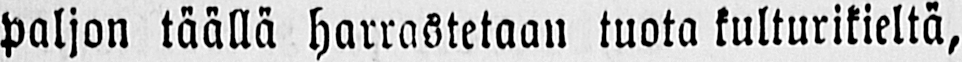paljon täällä harrastetaan tuota kulturikieltä,
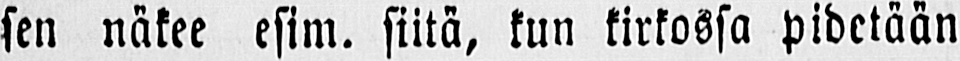sen näkee esim. siitä, kun kirkossa pidetään
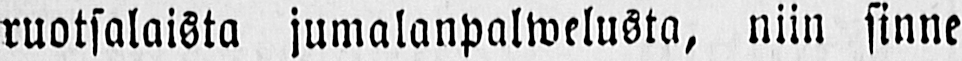ruotsalaista jumalanpalwelusta, niin sinne
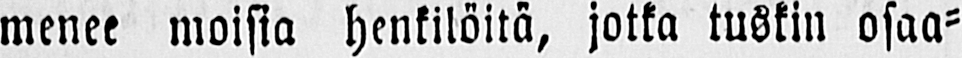menee moisia henkilöitä, jotka tuskin osaa-
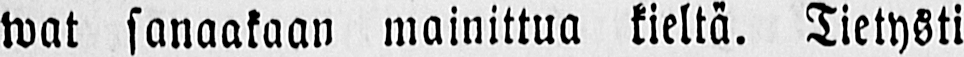wat sanaakaan mainittua kieltä. Tietysti
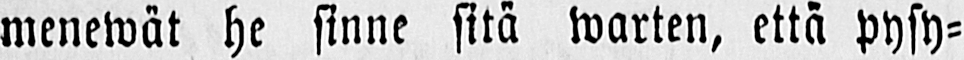menewät he sinne sitä warten, että pysy-
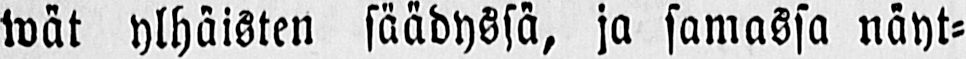wät ylhäisten säädyssä, ja samassa näyt-
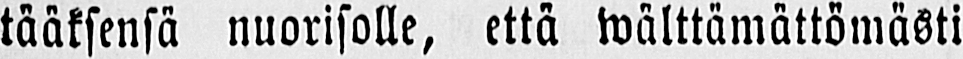tääksensä nuorisolle, että wälttämättömästi
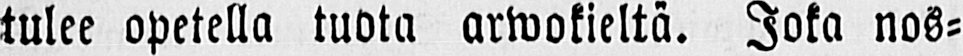tulee opetella tuota arwokieltä. Joka nos-
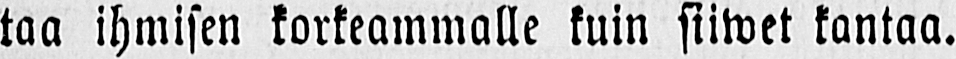taa ihmisen korkeammalle kuin siiwet kantaa.
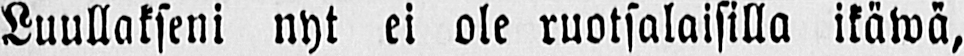Luullakseni nyt ei ole ruotsalaisilla ikäwä,
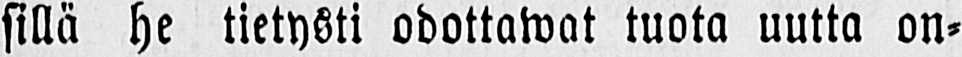sillä he tietysti odottawat tuota uutta on-
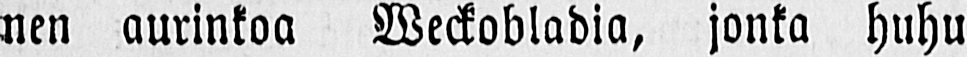nen aurinkoa Weckobladia, jonka huhu
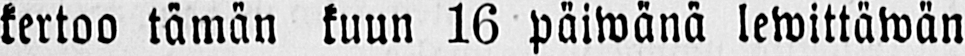kertoo tämän kuun 16 päiwänä lewittäwän
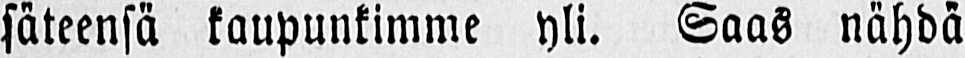säteensä kaupunkimme yli. Saas nähdä
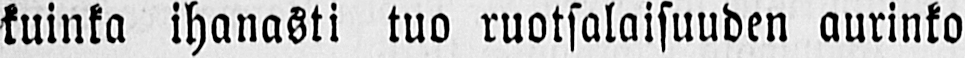kuinka ihanasti tuo ruotsalaisuuden aurinko
